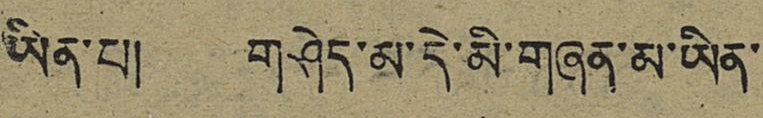ཡིན་པ། གཤེད་མ་དེ་མི་གཞན་མ་ཡིན་
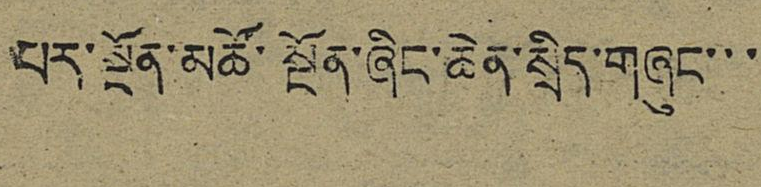པར་སྔོན་མཚོ་སྔོན་ཞིང་ཆེན་སྲིད་གཞུང་་་
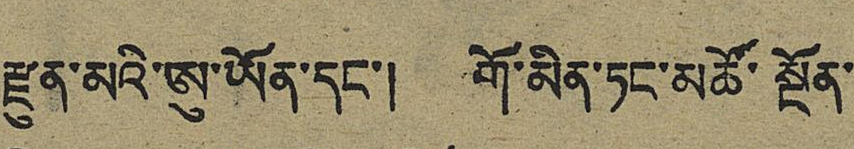རྫུན་མའི་ཨུ་ཡོན་དང་། གོ་མིན་ཏང་མཚོ་སྔོན་
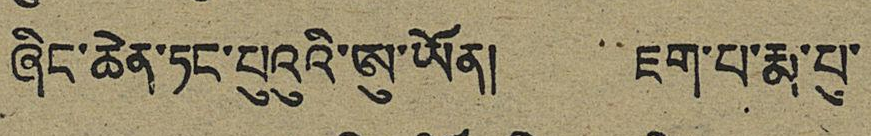ཞིང་ཆེན་ཏང་པུའུའི་ཨུ་ཡོན། ཇག་པ་རྨ་པུ་
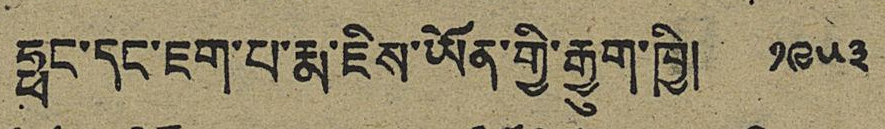ཧྥང་དང་ཇག་པ་རྨ་ཇིས་ཡོན་གྱི་རྒྱུག་ཁྱི། ༡༩༥༣
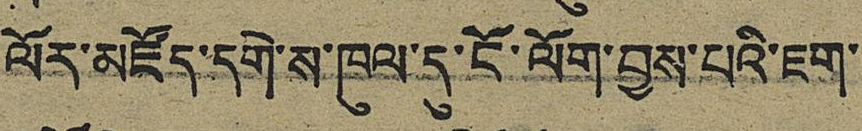ལོར་མཛོད་དགེ་ས་ཁུལ་དུ་ངོ་ལོག་བྱས་པའི་ཇག་
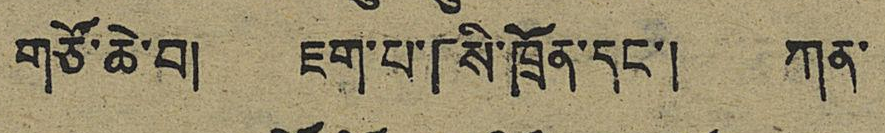གཙོ་ཆེ་བ། ཇག་པ་「སི་ཁྲོན་དང་། ཀན་
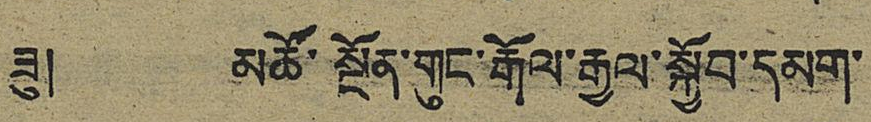ཟུ། མཚོ་སྔོན་གུང་རྒོལ་རྒྱལ་སྐྱོབ་དམག་
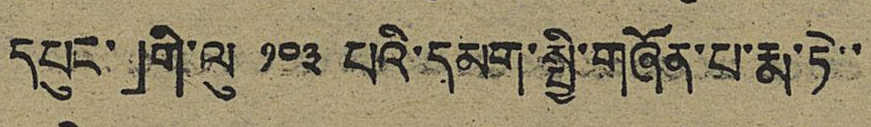དཔུང་」གི་ལུ ༡༠༣ པའི་དམག་སྤྱི་གཞོན་པ་རྨ་ཏེ་་
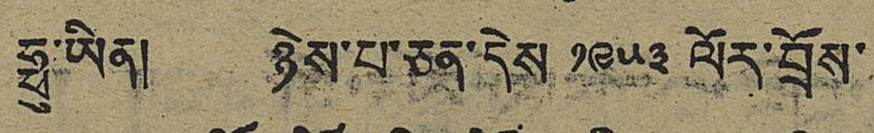ཧྥུ་ཡིན། ཉེས་པ་ཅན་དེས ༡༩༥༣ ལོར་བྲོས་
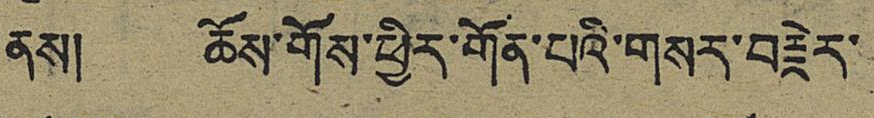ནས། ཆོས་གོས་ཕྱིར་གོན་པའི་གསར་བརྗེར་
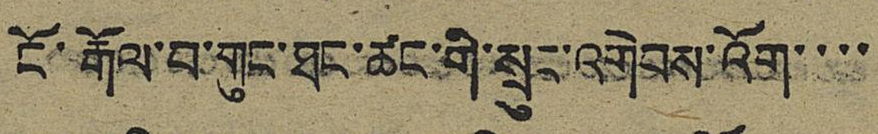ངོ་རྒོལ་བ་གུང་ཐང་ཚང་གི་སྲུང་འགེབས་འོག་་་་
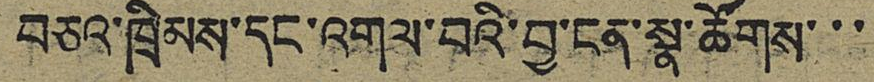བཅའ་ཁྲིམས་དང་འགལ་བའི་བྱ་ངན་སྣ་ཚོགས་་་
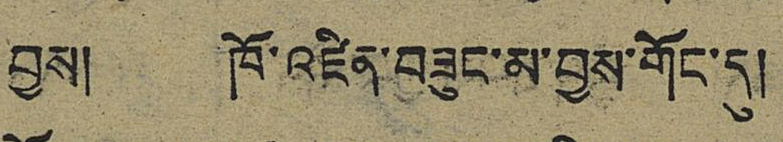བྱས། ཁོ་འཛིན་བཟུང་མ་བྱས་གོང་དུ།
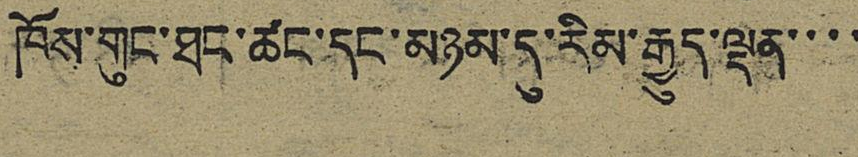ཁོས་གུང་ཐང་ཚང་དང་མཉམ་དུ་རིམ་རྒྱུད་ལྡན་་་་
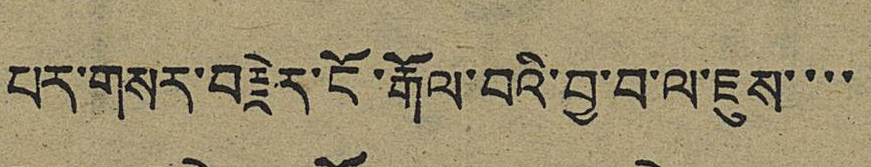པར་གསར་བརྗེར་ངོ་རྒོལ་བའི་བྱ་བ་ལ་ཇུས་་་་
